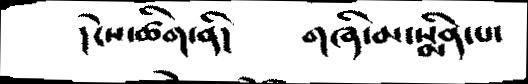།ངེས་ཚིག་ནི།   གཞི་མ་སྨིན་པ་
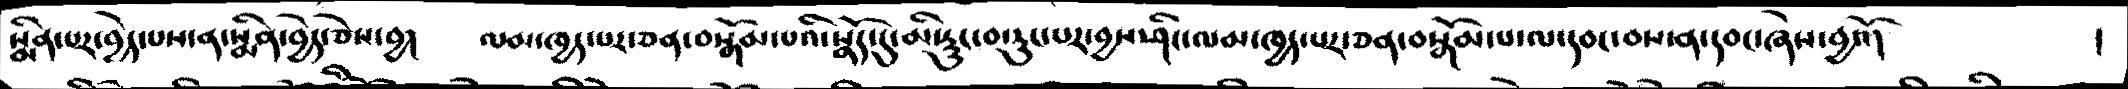སྨིན་པར་བྱེད་པས་ན་སྨིན་བྱེད་ཅེས་བྱ།   ལམ་ཁྱད་པར་ཅན་བསྒོམ་པའི་སྣོད་དུ་མི་རུང་བ་རུང་པར་བྱས་ཤིང་ལམ་ཁྱད་པར་ཅན་བསྒོམ་པ་ལ་དབང་བས་ན་དབང་ཞེས་བྱའོ།   །
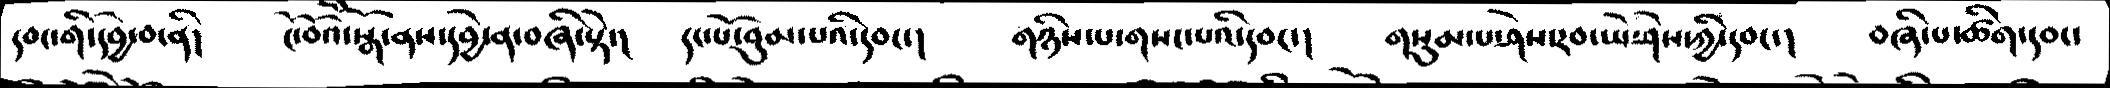དབང་གི་དབྱེ་བ་ནི།  ངོ་བོའི་སྒོ་ནས་དབྱེ་ན་བཞི་སྟེ་།   དང་པོ་བུམ་པའི་དབང་།   གཉིས་པ་གསང་པའི་དབང་།  གསུམ་པ་ཤེས་རབ་ཡེ་ཤེས་ཀྱི་དབང་།  བཞི་པ་ཚིག་དབང་
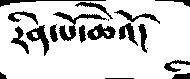རིན་པོ་ཆེའོ།
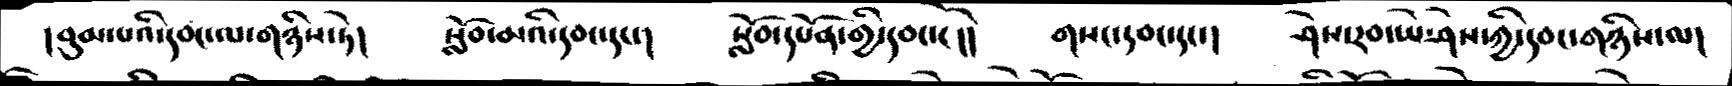།བུམ་པའི་དབང་ལ་གཉིས་ཏེ།   སློབ་མའི་དབང་དང་།   སློབ་དཔོན་གྱི་དབང་ངོ །།   གསང་དབང་དང་།  ཤེས་རབ་ཡེ་ཤེས་ཀྱི་དབང་གཉིས་ལ།
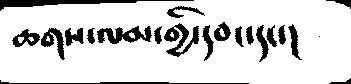ཆགས་ལམ་གྱི་དབང་དང་།
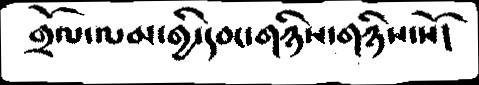གྲོལ་ལམ་གྱི་དབང་གཉིས་གཉིས་སོ།
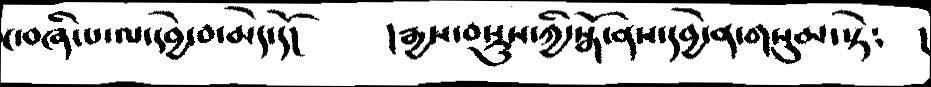ང་བཞི་པ་ལ་དབྱེ་བ་མེད་དོ།   །རྒྱས་བསྡུས་ཀྱི་སྒོ་ནས་དབྱེ་ན་གསུམ་སྟེ༴  །
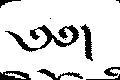༄༅།
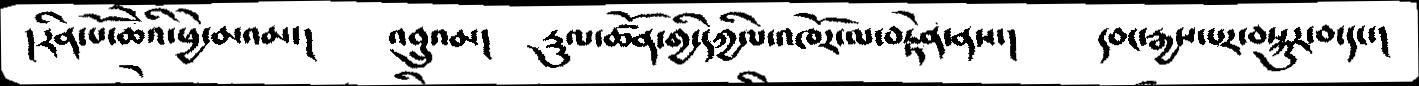།རིན་པོ་ཆེའི་ཕྱེ་མའམ་།   འབྲུའམ།     རྡུལ་ཚོན་གྱི་དཀྱིལ་འཁོར་ལ་བརྟེན་ནས་།    དབང་རྒྱས་པར་བསྐུར་བ་དང་།
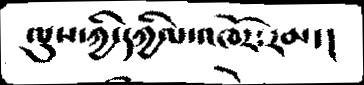ལུས་ཀྱི་དཀྱིལ་འཁོར༴རམ་།
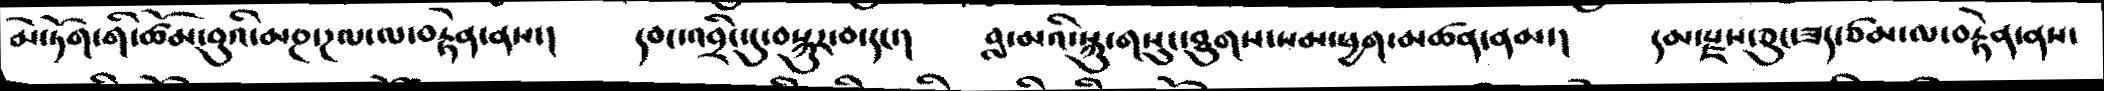མེ་ཏོག་གི་ཚོམ་བུའི་མཎ་ཌལ་ལ་བརྟེན་ནས།   དབང་འབྲིང་དུ་བསྐུར་བ་དང་།   བླ་མའི་སྐུ་གསུང་ཐུགས་སམ་ཕྱག་མཚན་ནམ་།   དམ་རྫས་ཅུང་ཟད་ཙམ་ལ་བརྟེན་ནས་
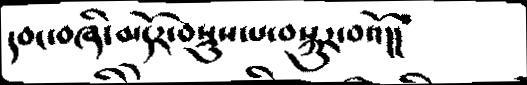དབང་བཞི་མདོར་བསྡུས་པ་བསྐུར་བའོ།།
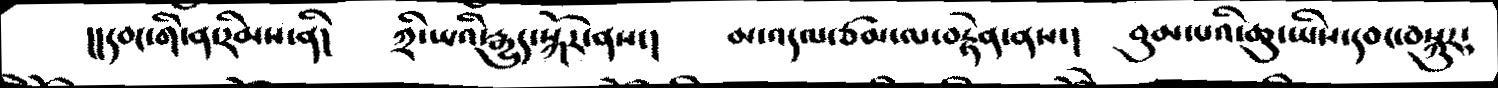།།དབང་གི་ན་རིམས་ནི།   ཀྲི་ཡའི་རྒྱུད་སྐོར་ནས་།    མ་འདལ་ཙམ་ལ་བརྟེན་ནས་།   བུམ་པའི་ཆུ་ཡིས་དབང་བསྐུར༴
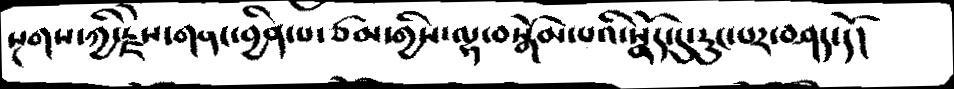སྔགས་ཀྱི་རྗེས་གནང་བྱིན་པ་ཙམ་གྱིས་ལྷ་བསྒོམ་པའི་སྣོད་དུ་རུང་པར་བཤད་དོ།
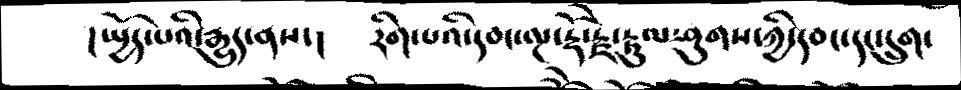།སྤྱོད་པའི་རྒྱུད་ནས་།    རིག་པའི་དབང་ལྔ་རྡོ་རྗེ་རྟུལ་ཤུགས་ཀྱི་དབང་དང་དྲུག་
